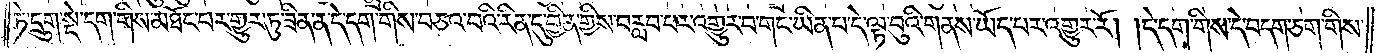ཏེ་དྲུག་སྡེ་དག་གིས་མཐོང་བར་གྱུར་ཏུ་ཟིན་ན་དེ་དག་གིས་བཅའ་བའི་རིན་དུ་བྱིན་གྱིས་བརླབ་པར་འགྱུར་བ་གང་ཡིན་པ་དེ་ལྟ་བུའི་གནས་ཡོད་པར་འགྱུར་རོ། །དེ་དག་གིས་དེ་བདག་ཅག་གིས་
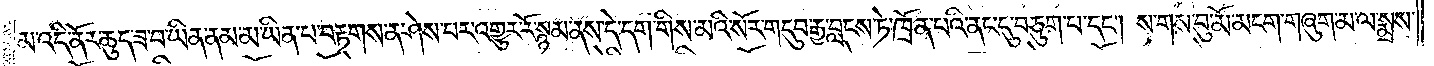མ་འདི་ནོར་ཆུད་ཟ་བ་ཡིན་ནམ་མ་ཡིན་པ་བརྟགས་ན་ཤེས་པར་འགྱུར་རོ་སྙམ་ནས་དེ་དག་གིས་མའི་སོར་གདུབ་རྒྱ་བླངས་ཏེ་ཁྲོན་པའི་ནང་དུ་བཅུག་པ་དང༌། ས་གས་བུ་མོ་མངག་གཞུག་མ་ལ་སྨྲས་
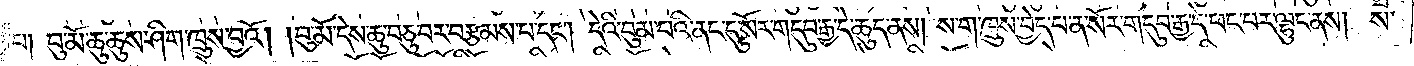པ། བུ་མོ་ཆུ་ཆུས་ཤིག་ཁྲུས་བྱའོ། །བུ་མོ་དེས་ཆུ་བཅུ་བར་བརྩམས་པ་དང༌། དེའི་བུམ་པའི་ནང་དུ་སོར་གདུབ་རྒྱ་དེ་ཆུད་ནས། ས་ག་ཁྲུས་བྱེད་པ་ན་སོར་གདུབ་རྒྱ་དེ་ཕང་པར་ལྷུང་ནས། ས་
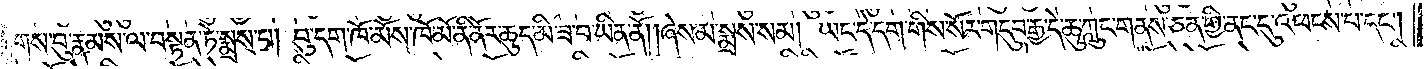གས་བུ་རྣམས་ལ་བསྟན་ཏེ་སྨྲས་པ། བུ་དག་ཁོ་མོས་ཁོ་མོ་ནི་ནོར་ཆུད་མི་ཟ་བ་ཡིན་ནོ། །ཞེས་མ་སྨྲས་སམ། ཡང་དེ་དག་གིས་སོར་གདུབ་རྒྱ་དེ་ཆུ་ཀླུང་གནས་ཅན་གྱི་ནང་དུ་འཕངས་པ་དང༌།
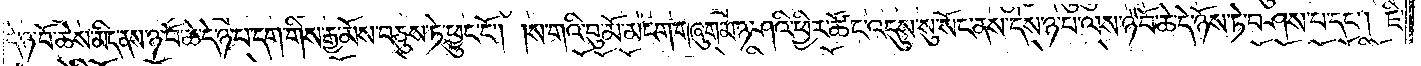དེ་ཉ་བོ་ཆེས་མིད་ནས་ཉ་བོ་ཆེ་དེ་ཉ་བ་དག་གིས་རྒྱ་མོས་བཅུས་ཏེ་ཕྱུང་ངོ༌། །ས་གའི་བུ་མོ་མངག་གཞུག་མ་ཉ་ཤའི་ཕྱིར་ཚོང་འདུས་སུ་སོང་ནས་དེས་ཉ་པ་ལས་ཉ་བོ་ཆེ་དེ་ཉོས་ཏེ་བཤས་པ་དང༌། ཇི་
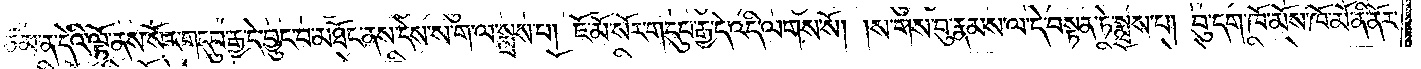ཙམ་ན་དེའི་ལྟོ་ནས་སོར་གདུབ་རྒྱ་དེ་བྱུང་བ་མཐོང་ནས་དེས་ས་ག་ལ་སྨྲས་པ། ཇོ་མོ་སོར་གདུབ་རྒྱ་དེ་འདི་ལགས་སོ། །ས་གས་བུ་རྣམས་ལ་དེ་བསྟན་ཏེ་སྨྲས་པ། བུ་དག་ཁོ་མོས་ཁོ་མོ་ནི་ནོར་
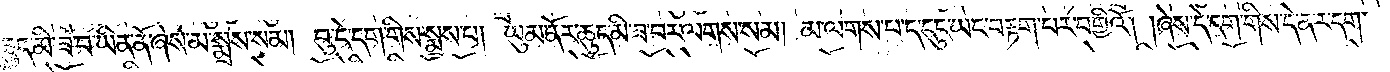ཆུད་མི་ཟ་བ་ཡིན་ནོ་ཞེས་མ་སྨྲས་སམ། བུ་དེ་དག་གིས་སྨྲས་པ། ཡུམ་ནོར་ཆུད་མི་ཟ་བར་ལགས་སམ། མ་ལགས་པ་ད་དུང་ཡང་བརྟག་པར་བགྱིའོ། །ཞེས་དེ་དག་གིས་དེ་ན་ར་དག་
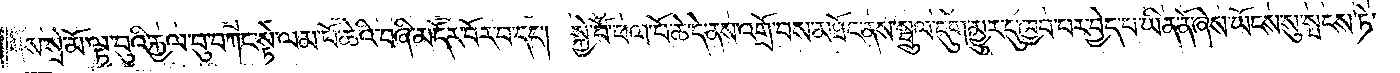གིས་སྲེ་མོ་ལྟ་བུའི་རྐྱལ་བུ་བཀང་སྟེ་ལམ་པོ་ཆེའི་བཞི་མདོར་བོར་བ་དང༌། སྐྱེ་བོ་ཕལ་པོ་ཆེ་དེ་ནས་འགྲོ་བས་མཐོང་ནས་སྦྲུལ་དུག་མྱུར་དུ་ཁྱབ་པར་བྱེད་པ་ཡིན་ནོ་ཞེས་ཡོངས་སུ་སྤངས་ཏེ་
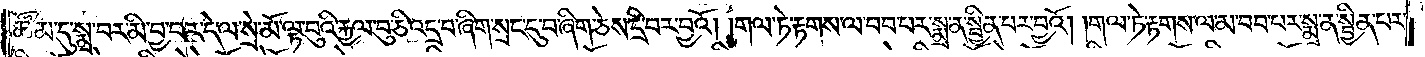ཚོམ་དུ་སྨྲ་བར་མི་བྱ་བར་དེ་ལ་སྲེ་མོ་ལྟ་བུའི་རྐྱལ་བུ་ཅི་འདྲ་བ་ཞིག་སྲང་དུ་བ་ཞིག་ཅེས་དྲི་བར་བྱའོ། །གལ་ཏེ་རྟགས་ལ་བབ་པར་སྨྲ་ན་སྦྱིན་པར་བྱའོ། །གལ་ཏེ་རྟགས་ལ་མ་བབ་པར་སྨྲ་ན་སྦྱིན་པར་
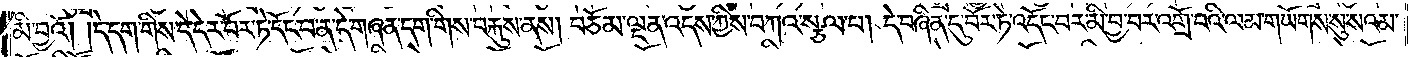མི་བྱའོ། །དེ་དག་གིས་དེ་དེར་བོར་ཏེ་དོང་བ་ན་དེ་གཞན་དག་གིས་བརྐུས་ནས། བཅོམ་ལྡན་འདས་ཀྱིས་བཀའ་སྩལ་པ། དེ་བཞིན་དུ་བོར་ཏེ་འདོང་བར་མི་བྱ་བར་འགྲོ་བའི་ལམ་གཡོགས་སུ་སའམ་
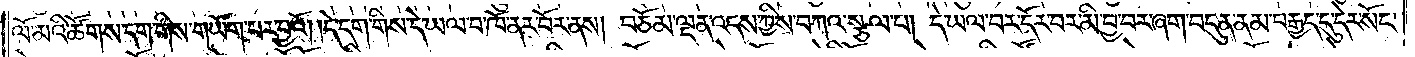ལོ་མའི་ཚོགས་དག་གིས་གཡོག་པར་བྱའོ། །དེ་དག་གིས་དེ་ཡལ་བ་ཁོ་ནར་བོར་ནས། བཅོམ་ལྡན་འདས་ཀྱིས་བཀའ་སྩལ་པ། དེ་ཡལ་བར་དོར་བར་མི་བྱ་བར་ཞག་བདུན་ནམ་བརྒྱད་དུ་དེར་སོང་
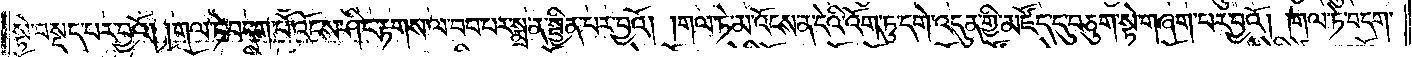སྟེ་བསྡད་པར་བྱའོ། །གལ་ཏེ་བདག་པོ་འོངས་ཤིང་རྟགས་ལ་བབ་པར་སྨྲ་ན་སྦྱིན་པར་བྱའོ། །གལ་ཏེ་མ་འོངས་ན་དེའི་འོག་ཏུ་དགེ་འདུན་གྱི་མཛོད་དུ་བཅུག་སྟེ་གཞག་པར་བྱའོ། །གལ་ཏེ་བདག་
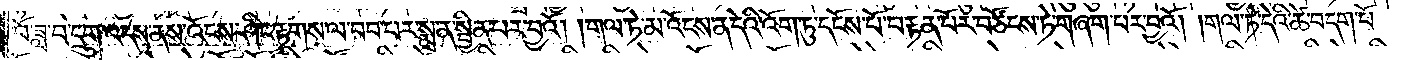བོ་ཟླ་བ་དྲུག་འདས་ནས་འོངས་ཤིང་རྟགས་ལ་བབ་པར་སྨྲ་ན་སྦྱིན་པར་བྱའོ། །གལ་ཏེ་མ་འོངས་ན་དེའི་འོག་ཏུ་དངོས་པོ་བརྟན་པོར་བཙོངས་ཏེ་གཞག་པར་བྱའོ། །གལ་ཏེ་དེའི་ཚེ་བདག་པོ་
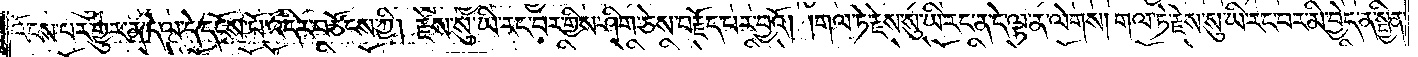འོངས་པར་གྱུར་ན་དེ་ལ་དེ་དངོས་པོ་འདིར་བཙོངས་ཀྱི། རྗེས་སུ་ཡི་རང་བར་གྱིས་ཤིག་ཅེས་བརྗོད་པར་བྱའོ། །གལ་ཏེ་རྗེས་སུ་ཡི་རང་ན་དེ་ལྟ་ན་ལེགས། གལ་ཏེ་རྗེས་སུ་ཡི་རང་བར་མི་བྱེད་ན་སྦྱིན་
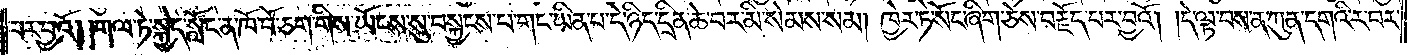པར་བྱའོ། །གལ་ཏེ་སྐྱེད་སློང་ན་ཁོ་བོ་ཅག་གིས་ཡོངས་སུ་བསྐྱངས་པ་གང་ཡིན་པ་དེ་ཉིད་དྲིན་ཆེ་བར་མི་སེམས་སམ། ཁྱེར་ཏེ་སོང་ཞིག་ཅེས་བརྗོད་པར་བྱའོ། །དེ་ལྟ་བས་ན་ཀུན་དགའི་ར་བར་
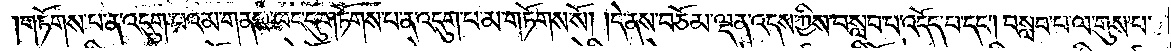གཏོགས་པ་ན་འདུག་པའམ་གནས་ཁང་དུ་གཏོགས་པ་ན་འདུག་པ་མ་གཏོགས་སོ། །དེ་ནས་བཅོམ་ལྡན་འདས་ཀྱིས་བསླབ་པ་འདོད་པ་དང༌། བསླབ་པ་ལ་གུས་པ་
